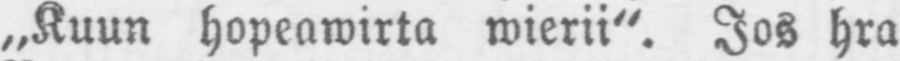„Kuun hopeawirta wierii". Jos hra
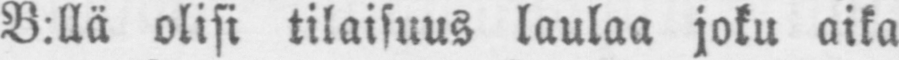B:llä olisi tilaisuus laulaa joku aika
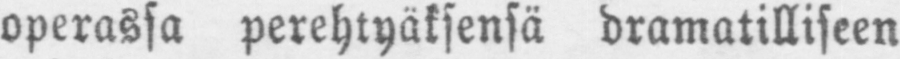operassa perehtyäksensä dramatilliseen
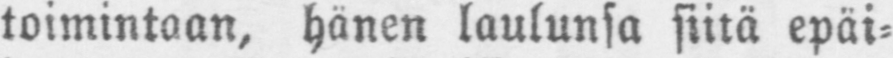toimintaan, hänen laulunsa siitä epäi-
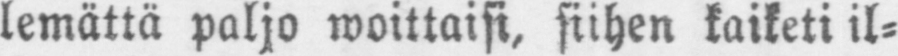lemättä paljo voittaisi, siihen kaiketi il-
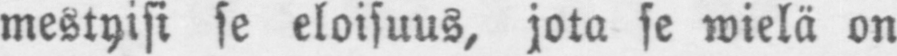mestyisi se eloisuus, jota se wielä on
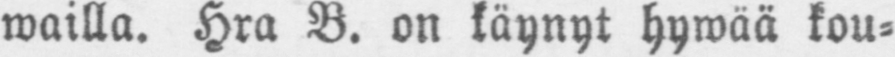wailla. Hra B. on käynyt hywää kou-
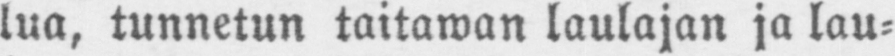lua, tunnetun taitaman laulajan ja lau-
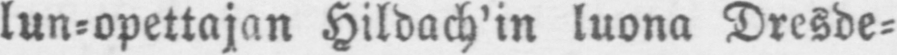lun-opettajan Hildach'in luona Dresde-
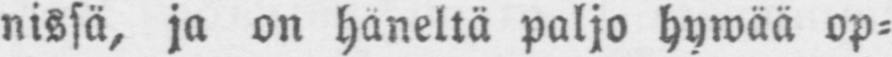nissä, ja on häneltä paljo hywää op-
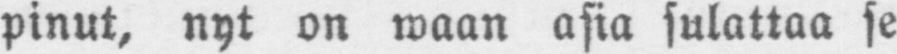pinut, nyt on maan asia sulattaa se
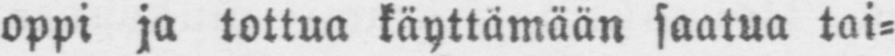oppi ja tottua käyttämään saatua tai-
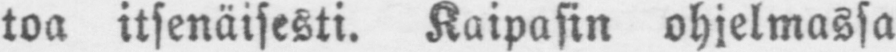toa itsenäisesti. Kaipasin ohjelmassa
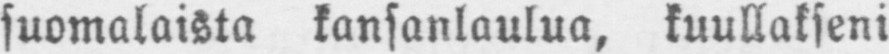suomalaista kansanlaulua, kuullakseni
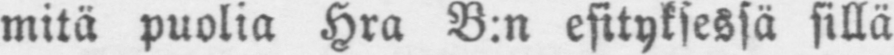mitä puolia Hra B:n esityksessä sillä
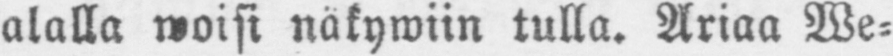alalla woisi näkywiin tulla. Ariaa We-
